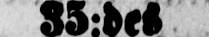35.des
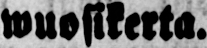wuosikerta.
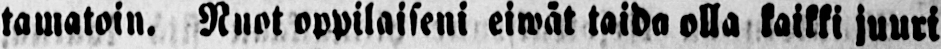tamatoin. Nuot oppilaiseni eiwät taida olla kaikki juuri
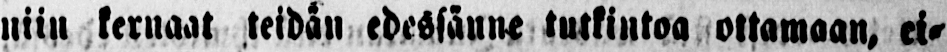niin kernaat teidän edessänne tutkintoa ottamaan, ei-
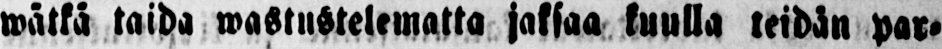wätkä taida wastustelematta jaksaa kuulla teidän par-
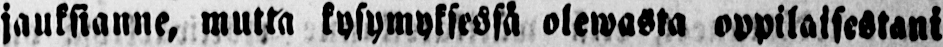jauksianne, mutta kysymyksessä olewasta oppilaisestani
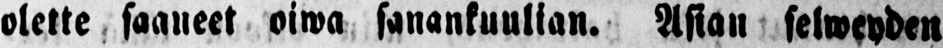olette saaneet oiwa sanankuulian. Asian selweyden
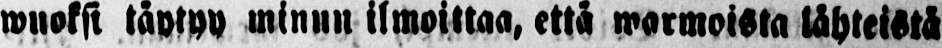wuoksi täytyy minun ilmoittaa, että warmoista lähteistä
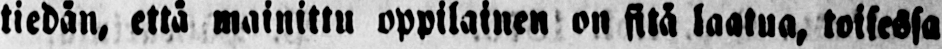tiedän, että mainittu oppilainen on sitä laatua, toisessa
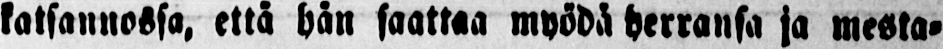katsannossa, että hän saattaa myödä herransa ja mesta-
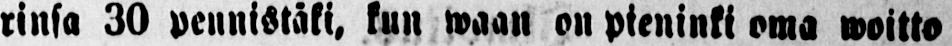rinsa 30 pennistäki, kun waan on pieninki oma woitto
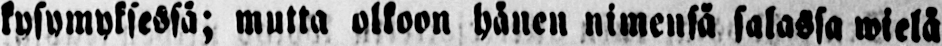kysymyksessä; mutta olkoon hänen nimensä salassa wielä
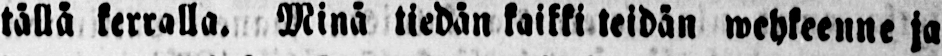tällä kerralla. Minä tiedän kaikki teidän wehkeenne ja
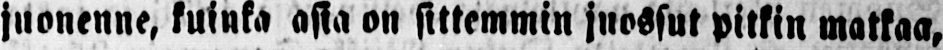juonenne, kuinka asia on sittemmin juossut pitkin matkaa,
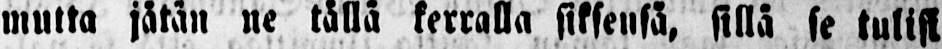mutta jätän ne tällä kerralla siksensä, sillä se tulisi
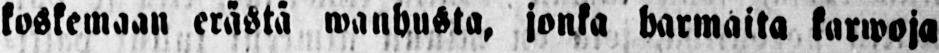koskemaan erästä wanhusta, jonka harmaita karwoja
